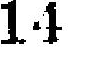14
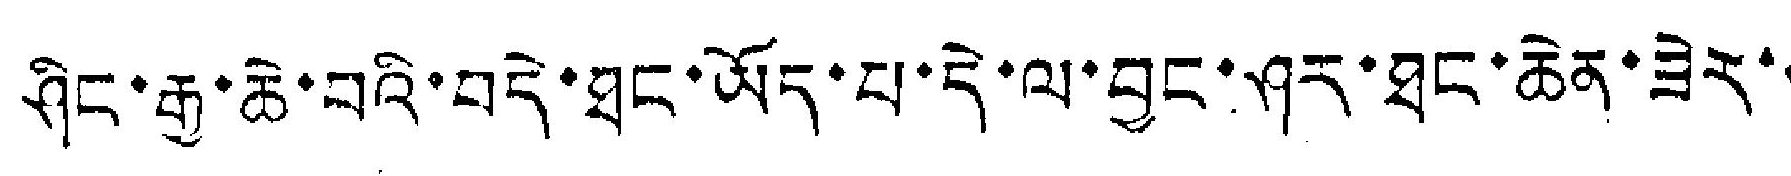ཤིང་རྒྱ་ཆེ་བའི་བདེ་ཐང་ཡོད་པ་དེ་ལ་བྱང་ཤར་ཐང་ཆེན་ཟེར་་
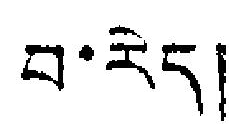བ་རེད།
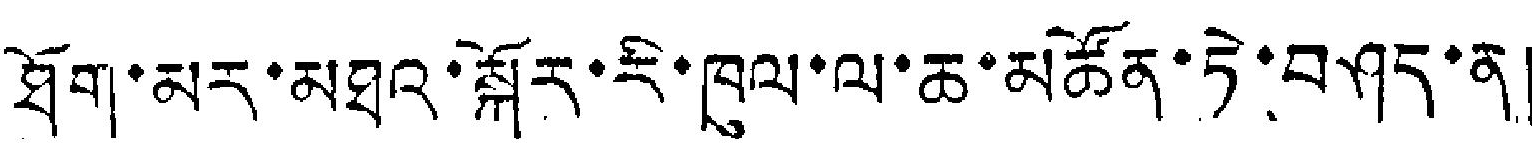ཐོག་མར་མཐའ་སྐོར་རི་ཁུལ་ལ་ཆ་མཚོན་ཏེ་བཤད་ན།
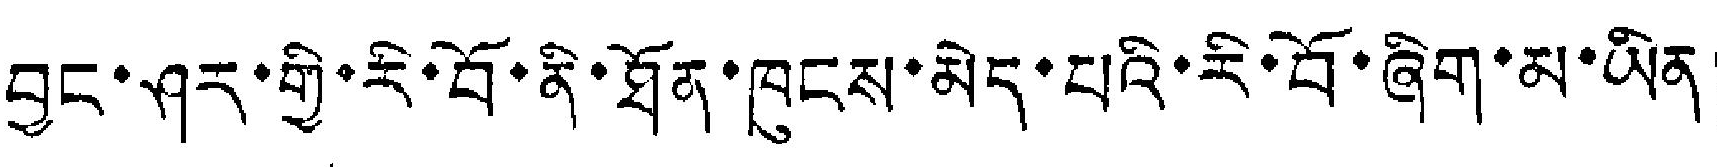བྱང་ཤར་གྱི་རི་བོ་ནི་ཐོན་ཁུངས་མེད་པའི་རི་བོ་ཞིག་མ་ཡིན།
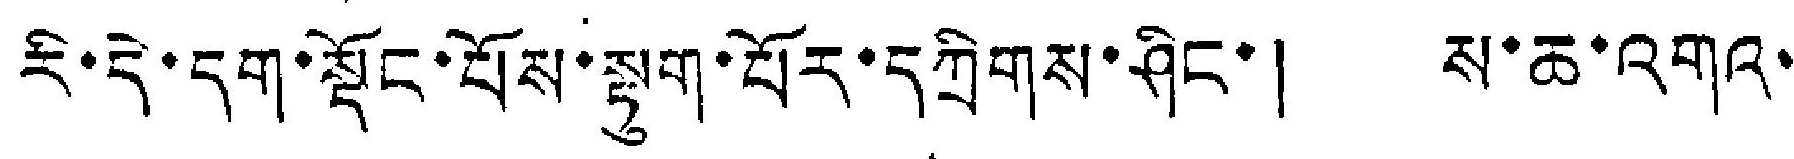རི་དེ་དག་སྡོང་པོས་སྟུག་པོར་དཀྲིགས་ཤིང་། ས་ཆ་འགའ་
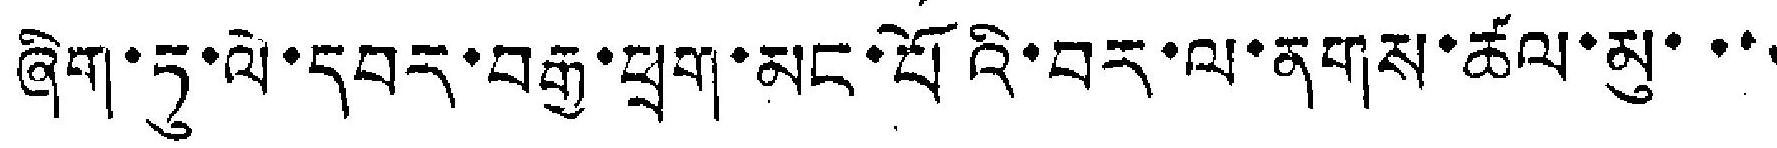ཞིག་ཏུ་ལེ་དབར་བརྒྱ་ཕྲག་མང་པོའི་བར་ལ་ནགས་ཚལ་མུ་་་་
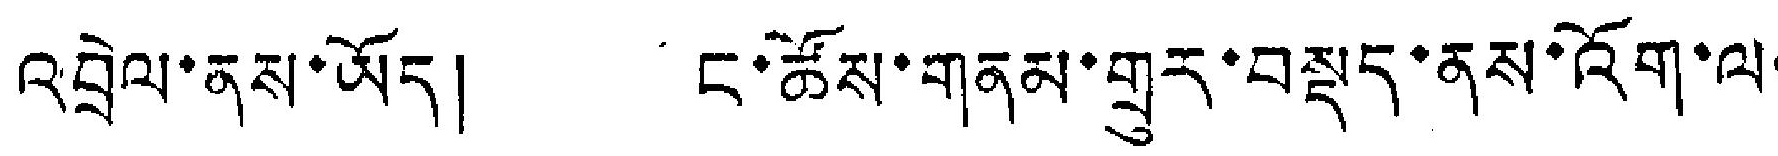འབྲེལ་ནས་ཡོད། ང་ཚོས་གནམ་གྲུར་བསྡད་ནས་འོག་ལ་
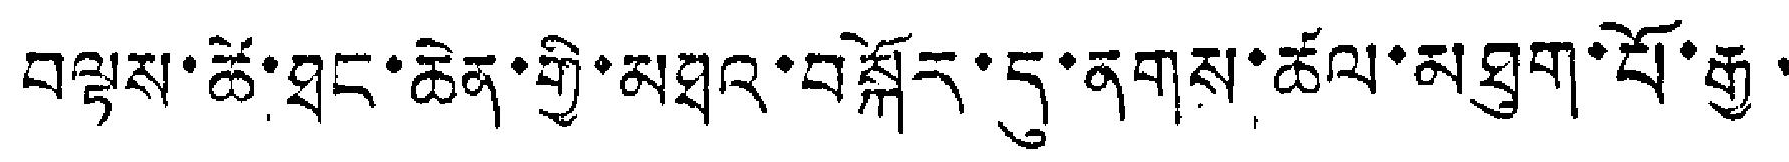བལྟས་ཚེ་ཐང་ཆེན་གྱི་མཐའ་བསྐོར་དུ་ནགས་ཚལ་མཐུག་པོ་རྒྱ་
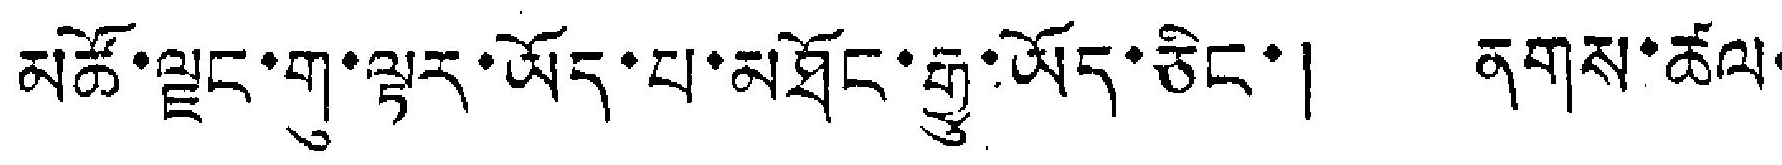མཚོ་ལྗང་གུ་ལྟར་ཡོད་པ་མཐོང་རྒྱུ་ཡོད་ཅིང་། ནགས་ཚལ་
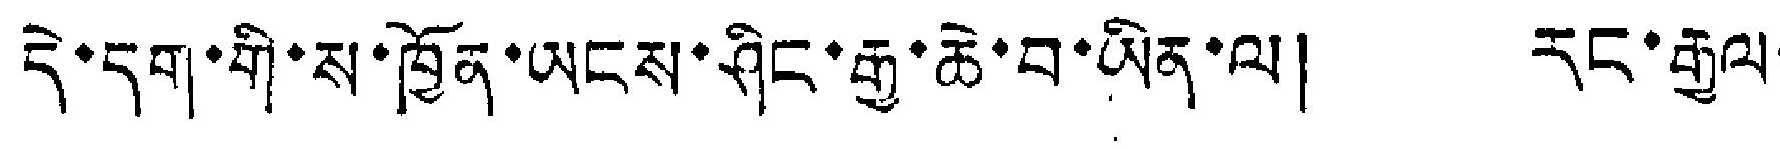དེ་དག་གི་ས་ཁྱོན་ཡངས་ཤིང་རྒྱ་ཆེ་བ་ཡིན་ལ། རང་རྒྱལ་
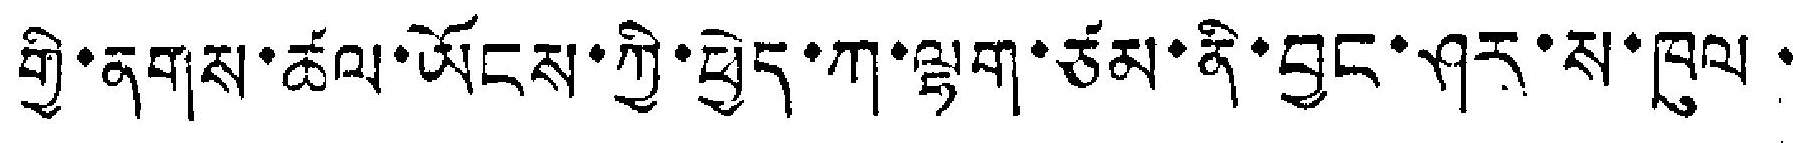གྱི་ནགས་ཚལ་ཡོངས་ཀྱི་ཕྱེད་ཀ་ལྷག་ཙམ་ནི་བྱང་ཤར་ས་ཁུལ་
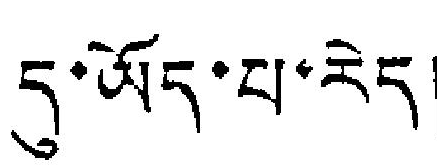དུ་ཡོད་པ་རེད།
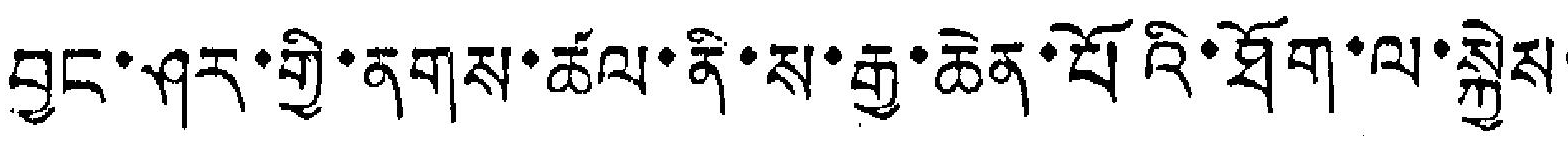བྱང་ཤར་གྱི་ནགས་ཚལ་ནི་ས་རྒྱ་ཆེན་པོའི་ཐོག་ལ་སྐྱེས་
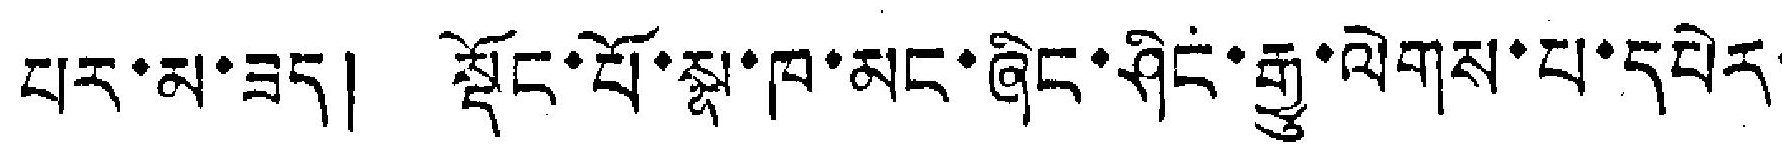པར་མ་ཟད། སྡོང་པོ་སྣ་ཁ་མང་ཞིང་ཤིང་རྒྱུ་ལེགས་པ་དཔེར་
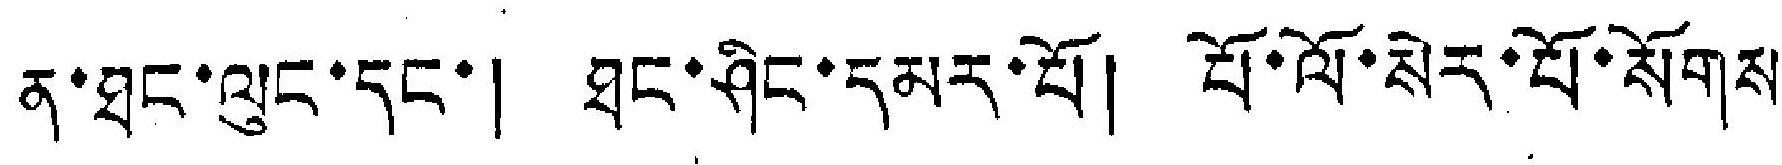ན་ཐང་ལུང་དང་། ཐང་ཤིང་དམར་པོ། པོ་ལོ་སེར་པོ་སོགས་
